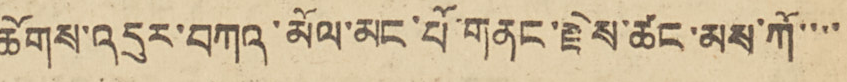ཆོགས་འདུར་བཀའ་མོལ་མང་པོ་གནང་རྗེས་ཚང་མས་ཀོ་་་་
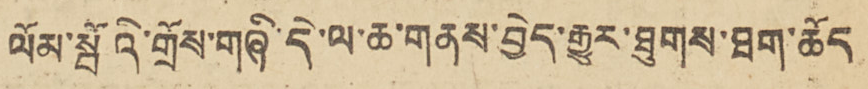ལོམ་སྦོའི་གྲོས་གཞི་དེ་ལ་ཆ་གནས་བྱེད་རྒྱུར་ཐུགས་ཐག་ཆོད
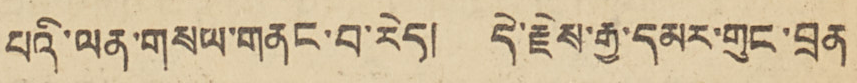པའི་ལན་གསལ་གནང་བ་རེད། དེ་རྗེས་རྒྱ་དམར་གུང་བྲན
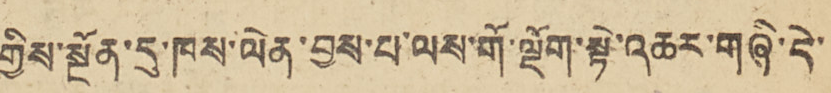གྱིས་སྔོན་དུ་ཁས་ལེན་བུས་པ་ལས་གོ་ལྡོག་སྟེ་འཆར་གཞི་དེ་
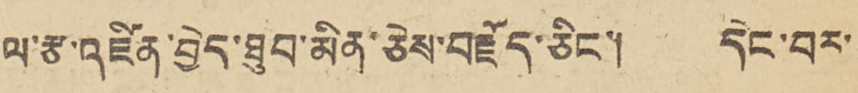ལ་རྩ་འཛིན་བྱེད་ཐུབ་མིན་ཅེས་བརྗོད་ཅིང་། དེང་བར་
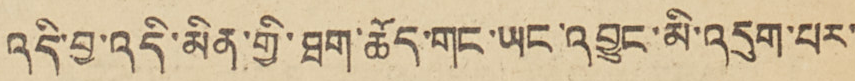འདི་བྱ་འདི་མིན་གྱི་ཐག་ཆོད་གང་ཡང་འབྱུང་མི་འདུག་པར་
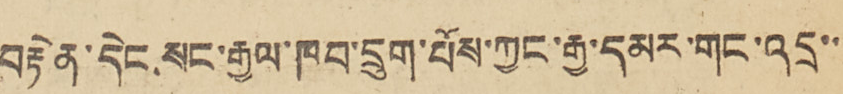བརྟེན་དེང སང་རྒྱལ་ཁབ་དྲུག་པོས་ཀྱང་རྒྱ་དམར་གང་འདྲ་་
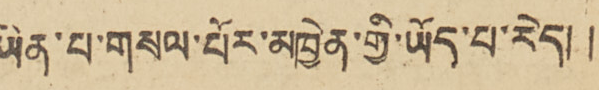ཡིན་པ་གསལ་པོར་མཁྱེན་གྱི་ཡོད་པ་རེད། །
